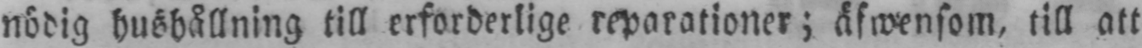nödig hushållning till erforderlige reparationer; äfwensom, till att
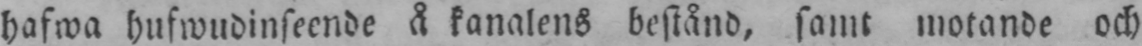hafwa hufwudinseende å kanalens bestånd, samt motande och
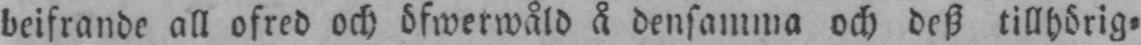beifrande all ofred och öfwerwåld å densamma och desz tillhörig-
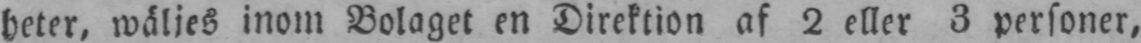heter, wäljes inom Bolaget en Direktion af 2 eller 3 personer,
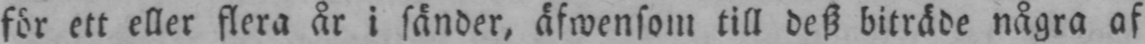för ett eller flera år i sänder, äfwensom till desz biträde några af
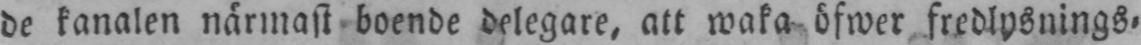de kanalen närmast boende delegare, att waka öfwer fredlysnings-
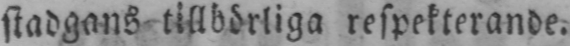stadgans tillbörliga respekterande.
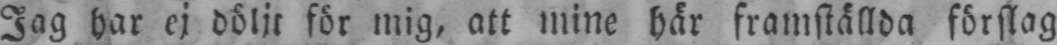Jag har ej döljt för mig, att mine här framställda förslag
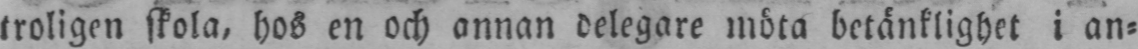troligen skola, hos en och annan delegare möta betänklighet i an-
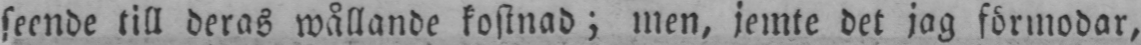seende till deras wållande kostnad; men, jemte det jag förmodar,
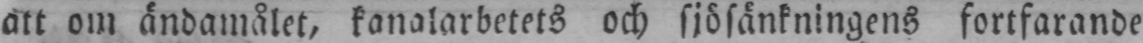att om ändamålet, kanalarbetets och sjösänkningens fortfarande
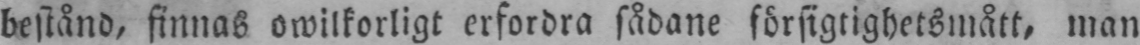bestånd, finnas owilkorligt erfordra sådane försigtighetsmått, man
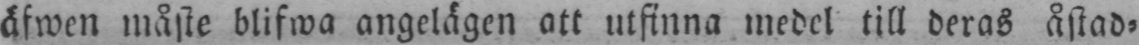äfwen måste blifwa angelägen att utfinna medel till deras åstad-
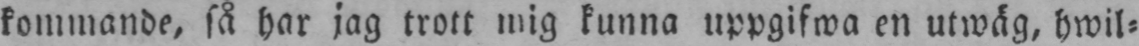kommande, så har jag trott mig kunna uppgifwa en utwäg, hwil-
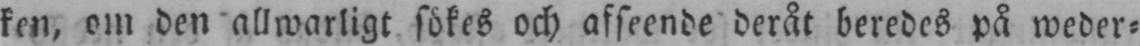ken, om den allwarligt sökes och afseende deråt beredes på weder-
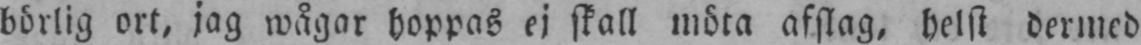börlig ort, jag wågar hoppas ej skall möta afslag, helst dermed
